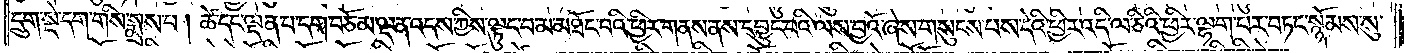དྲུག་སྡེ་དག་གིས་སྨྲས་པ། ཚེ་དང་ལྡན་པ་དག་བཅོམ་ལྡན་འདས་ཀྱིས་ལྟུང་བ་མ་མཐོང་བའི་ཕྱིར་གནས་ནས་དབྱུང་བའི་ལས་བྱའོ་ཞེས་གསུངས་པས་དེའི་ཕྱིར་འདི་ལ་ཅིའི་ཕྱིར་ལྷག་པར་བཏང་སྙོམས་སུ་
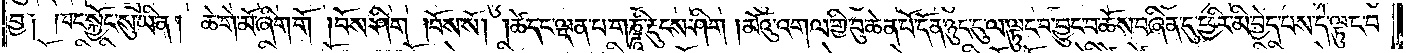བྱ༑ ཁང་སྐྱོང་སུ་ཡིན། ཆེ་གེ་མོ་ཞིག་གོ །བོས་ཤིག །བོས་སོ། །ཚེ་དང་ལྡན་པ་གཎྜཱི་རྡུངས་ཤིག །མོའུ་འགལ་གྱི་བུ་ཆེན་པོ་དོན་ཉུང་ངུ་ལ་ལྟུང་བ་བྱུང་བ་ཆོས་བཞིན་དུ་ཕྱིར་མི་བྱེད་པས་དེ་ལྟུང་བ་
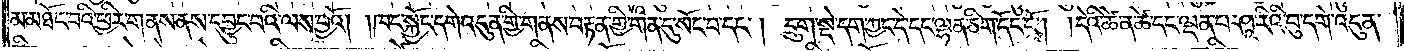མ་མཐོང་བའི་ཕྱིར་གནས་ནས་དབྱུང་བའི་ལས་བྱའོ། །ཁང་སྐྱོང་དགེ་འདུན་གྱི་གནས་བརྟན་གྱི་གན་དུ་སོང་བ་དང༌། དྲུག་སྡེ་དག་ཀྱང་དེ་དང་ལྷན་ཅིག་དོང་ངོ༌། །དེའི་ཚེ་ན་ཚེ་དང་ལྡན་པ་ཤཱ་རིའི་བུ་དགེ་འདུན་
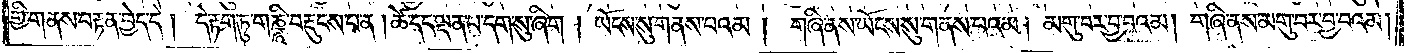གྱི་གནས་བརྟན་བྱེད་དེ། དེ་རྟག་ཏུ་གཎྜཱི་བརྡུངས་པ་ན། ཚེ་དང་ལྡན་པ་དག་སུ་ཞིག །ཡོངས་སུ་གནས་པའམ།  གཞི་ནས་ཡོངས་སུ་གནས་པའམ། མགུ་བར་བྱ་བའམ། གཞི་ནས་མགུ་བར་བྱ་བའམ།
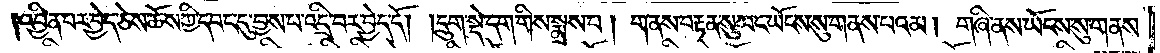འབྱིན་པར་བྱེད་ཅེས་ཆོས་ཀྱི་དབང་དུ་བྱས་པ་འདྲི་བར་བྱེད་དོ། །དྲུག་སྡེ་དག་གིས་སྨྲས་པ། གནས་བརྟན་སུ་ཡང་ཡོངས་སུ་གནས་པའམ། གཞི་ནས་ཡོངས་སུ་གནས་
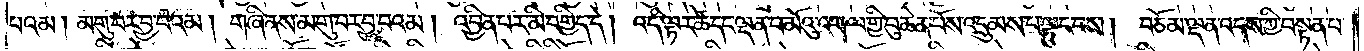པའམ། མགུ་བར་བྱ་བའམ། གཞི་ནས་མགུ་བར་བྱ་བའམ། འབྱིན་པར་མི་བགྱིད་དེ། འདི་ལྟར་ཚེ་དང་ལྡན་པ་མོའུ་འགལ་གྱི་བུ་ཆེན་པོས་འདྲུམས་པ་ལྟུང་བས། བཅོམ་ལྡན་འདས་ཀྱི་བསྟན་པ་
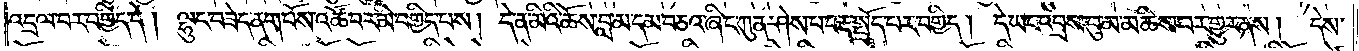འདྲལ་བར་བགྱིད་དེ། ལྷུང་བཟེད་ནག་པོས་འཚོ་བར་མི་བགྱིད་པས། དེ་ན་མིའི་ཆོས་བླ་མ་དམ་བཅའ་ཞིང་ཀུན་ཤེས་པ་བརྡ་སྤྲོད་པར་བགྱིད། དེ་ཡང་འབྲས་བུ་མ་མཆིས་པར་གྱུར་ནས། དེས་
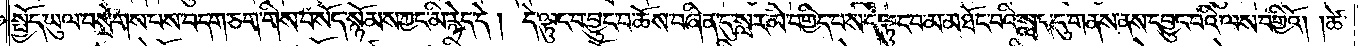སྤྱོད་ཡུལ་བསྲེགས་པས་བདག་ཅག་གིས་བསོད་སྙོམས་ཀྱང་མི་རྙེད་དེ། དེ་ལྟུང་བ་བྱུང་བ་ཆོས་བཞིན་དུ་སླར་མི་བགྱིད་པས་དེ་ལྟུང་བ་མ་མཐོང་བའི་སླད་དུ་གནས་ནས་དབྱུང་བའི་ལས་བགྱིའོ། །ཚེ་
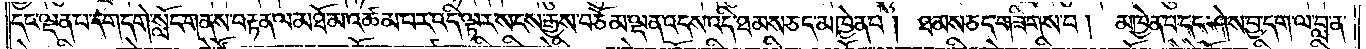དང་ལྡན་པ་དག་དགེ་སློང་གནས་བརྟན་ལ་མཐོ་མ་འཚམ་པར་འདི་ལྟར་སངས་རྒྱས་བཅོམ་ལྡན་འདས་འདི་ཐམས་ཅད་མཁྱེན་པ། ཐམས་ཅད་གཟིགས་པ། མཁྱེན་པ་དང་ཤེས་བྱ་དག་ལ་བླ་ན་
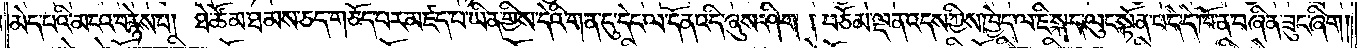མེད་པའི་མངའ་བརྙེས་པ། ཐེ་ཚོམ་ཐམས་ཅད་གཅོད་པར་མཛད་པ་ཡིན་གྱིས་དེའི་གན་དུ་དེང་ལ་དོན་འདི་ཞུས་ཤིག །བཅོམ་ལྡན་འདས་ཀྱིས་ཁྱེད་ལ་ཇི་སྐད་ལུང་སྟོན་པ་དེ་དེ་ཁོ་ན་བཞིན་ཟུང་ཞིག།
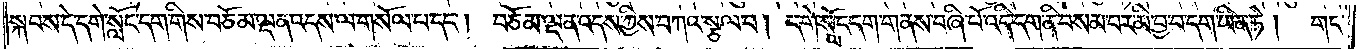སྐབས་དེ་དགེ་སློང་དག་གིས་བཅོམ་ལྡན་འདས་ལ་གསོལ་པ་དང༌།  བཅོམ་ལྡན་འདས་ཀྱིས་བཀའ་སྩལ་པ། དགེ་སློང་དག་གནས་བཞི་པོ་འདི་དག་ནི་བསམ་བར་མི་བྱ་བ་དག་ཡིན་ཏེ།  གང་
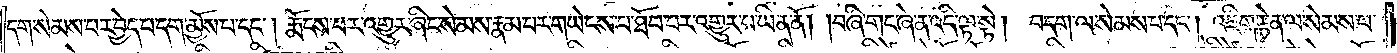དག་སེམས་པར་བྱེད་པ་དག་མྱོས་པ་དང༌། རྨོངས་པར་འགྱུར་ཞིང་སེམས་རྣམ་པར་གཡེངས་པ་ཐོབ་པར་འགྱུར་པ་ཡིན་ནོ། བཞི་གང་ཞེ་ན་འདི་ལྟ་སྟེ། བདག་ལ་སེམས་པ་དང༌། འཇིག་རྟེན་ལ་སེམས་པ་
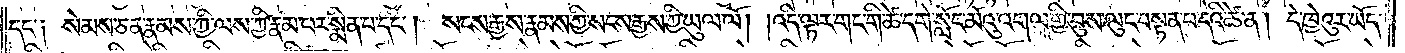དང་༑ སེམས་ཅན་རྣམས་ཀྱི་ལས་ཀྱི་རྣམ་པར་སྨིན་པ་དང༌། སངས་རྒྱས་རྣམས་ཀྱི་སངས་རྒྱས་ཀྱི་ཡུལ་ལོ། །འདི་ལྟར་གང་གི་ཚེ་དགེ་སློང་མོའུ་འགལ་གྱི་བུས་ལུང་བསྟན་པ་དེའི་ཚེ་ན། དེ་ཁྱེའུར་ཡོད་
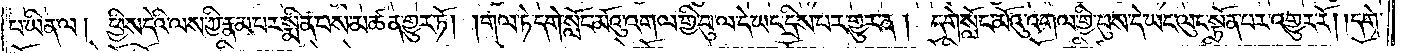པ་ཡིན་ལ། ཕྱིས་དེའི་ལས་ཀྱི་རྣམ་པར་སྨིན་པས་མཚན་གྱུར་ཏོ། །གལ་ཏེ་དགེ་སློང་མོའུ་འགལ་གྱི་བུ་ལ་དེ་ཡང་དྲིས་པར་གྱུར་ན། དགེ་སློང་མོའུ་འགལ་གྱི་བུས་དེ་ཡང་ལུང་སྟོན་པར་འགྱུར་རོ། །དགེ་
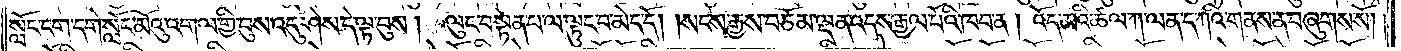སློང་དག་དགེ་སློང་མོའུ་འགལ་གྱི་བུས་འདུ་ཤེས་དེ་ལྟ་བུས། ལུང་བསྟན་པ་ལ་ལྟུང་བ་མེད་དོ། །སངས་རྒྱས་བཅོམ་ལྡན་འདས་རྒྱལ་པོའི་ཁབ་ན། འོད་མའི་ཚལ་ཀ་ལན་ད་ཀའི་གནས་ན་བཞུགས་སོ། །
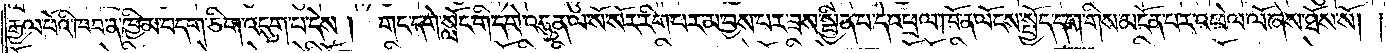རྒྱལ་པོའི་ཁབ་ན་ཁྱིམ་བདག་ཅིག་འདུག་པ་དེས། གང་དགེ་སློང་གི་དགེ་འདུན་ལ་སོ་སོར་རིག་པར་མ་བྱས་པར་ཟས་སྦྱིན་པ་དེ་འཕྲལ་ཁོ་ན་ལོངས་སྤྱོད་དག་གིས་མངོན་པར་འཕེལ་ལོ་ཞེས་ཐོས་སོ། །
